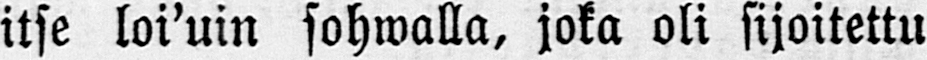itse loi'uin sohwalla, joka oli sijoitettu
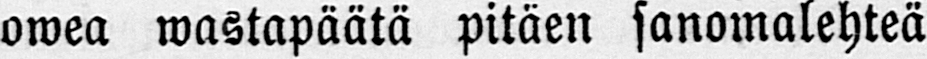owea wastapäätä pitäen sanomalehteä
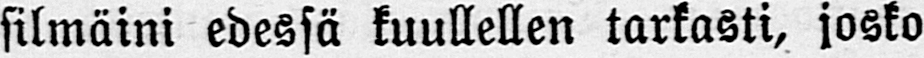silmäini edessä kuullellen tarkasti, josko
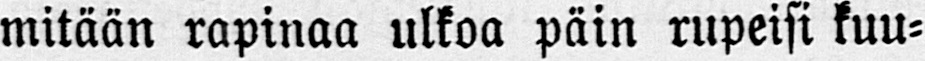mitään rapinaa ulkoa päin rupeisi kuu-
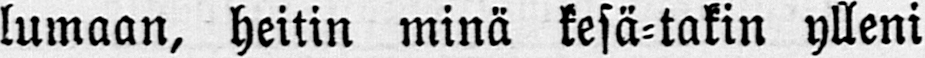lumaan, heitin minä kesä-takin ylleni
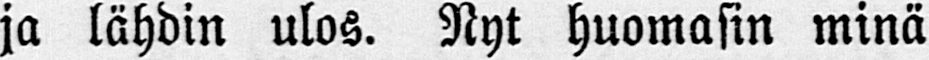ja lähdin ulos. Nyt huomasin minä
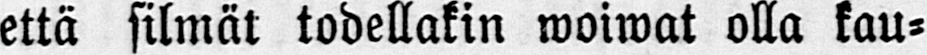että silmät todellakin woiwat olla kau-
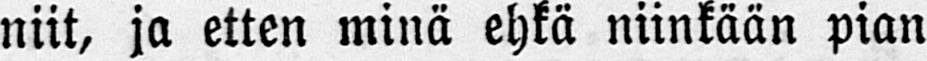niit, ja etten minä ehkä niinkään pian
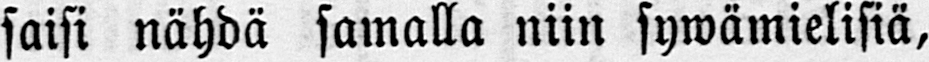saisi nähdä samalla niin sywämielisiä,
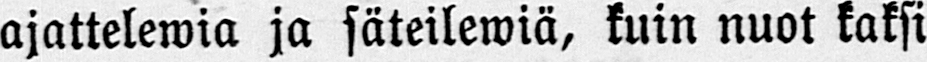ajattelewia ja säteilewiä, kuin nuot kaksi
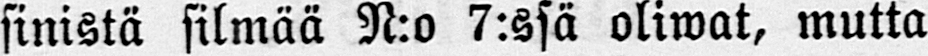sinistä silmää N:o 7:ssä oliwat, mutta
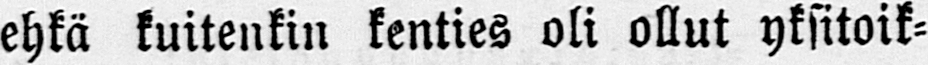ehkä kuitenkin kenties oli ollut yksitoik-
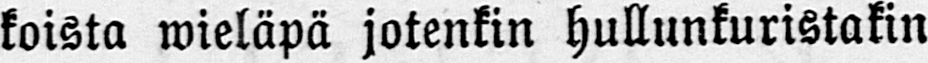koista wieläpä jotenkin hullunkuristakin
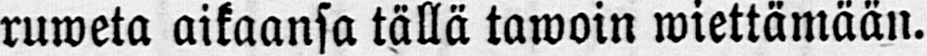ruweta aikaansa tällä tawoin wiettämään.
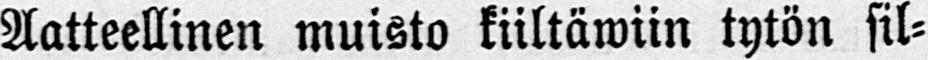Aatteellinen muisto kiiltäwiin tytön sil-
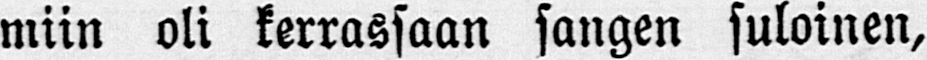miin oli kerrassaan sangen suloinen,
